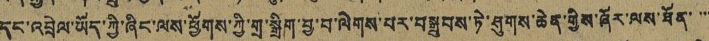དང་འབྲེལ་ཡོད་ཀྱི་ཞིང་ལས་ཕྱོགས་ཀྱི་གྲ་སྒྲིག་བྱ་བ་ལེགས་པར་བསྒྲུབས་ཏེ་ཤུགས་ཆེན་གྱིས་ཞོར་ལས་ཐོན་་་་
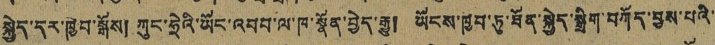སྐྱེད་དར་ཁྱེབ་སྒོས། ཀུང་ཧྲེའི་ཡོང་འབབ་ལ་ཁ་སྣོན་བྱེད་རྒྱུ། ཡོངས་ཁྱབ་ཏུ་ཐོན་སྐྱེད་སྒྲིག་བཀོད་བྱས་པའི་
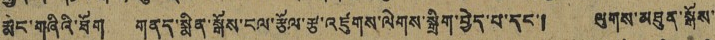རྨང་གཞིའ་ཐོག གནད་སྨིན་སྒོས་ངལ་རྩོལ་རྩ་འཛུགས་ལེགས་སྒྲིག་བྱེད་པ་དང་། ལུགས་མཐུན་སྒོས་
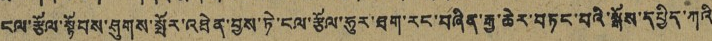ངལ་རྩོལ་སྟོབས་ཤུགས་སྤོར་འཐེན་བྱས་ཏེ་ངལ་རྩོལ་ཧུར་ཐག་རང་བཞིན་རྒྱ་ཆེར་བཏང་བའི་སྒོས་དཔྱིད་ཀའི
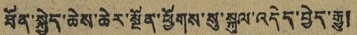ཐོན་སྐྱེད་ཆེས་ཆེར་སྔོན་ཕྱོགས་སུ་སྐུལ་འདེད་བྱེད་རྒྱུ།
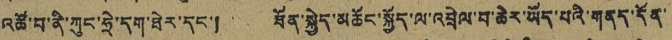འཚོ་བ་ནི་ཀུང་ཧྲེ་དག་ཐེར་དང་། ཐོན་སྐྱེད་མཆོང་སྐྱོད་ལ་འབྲེལ་བ་ཆེར་ཡོད་པའི་གནད་དོན་
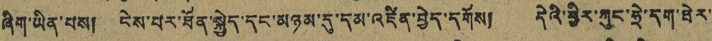ཞིག་ཡིན་པས། ངེས་པར་ཐོན་སྐྱེད་དང་མཉམ་དུ་དམ་འཛིན་བྱེད་དགོས། དེའི་ཕྱིར་ཀུང་ཧྲེ་དག་ཐེར་
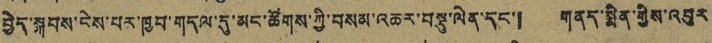བྱེད་སྐབས་ངེས་པར་ཁྱབ་གདལ་དུ་མང་ཚོགས་ཀྱི་བསམ་འཆར་བསྡུ་ལེན་དང་། གནད་སྨིན་གྱིས་འབུར
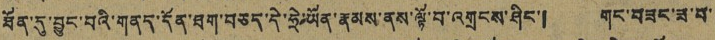ཐོན་དུ་བྱུང་བའི་གནད་དོན་ཐག་བཅད་དེ་ཧྲེ་ཡོན་རྣམས་ནས་ལྟོ་བ་འགྲངས་ཤིང་། གང་བཟང་ཟ་བ་
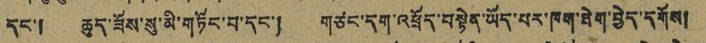དང་། ཆུད་ཟོས་སུ་མི་གཏོང་བ་དང་། གཙང་དག་འཕྲོད་བསྟེན་ཡོད་པར་ཁག་ཐེག་བྱེད་དགོས།
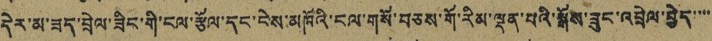དེར་མ་ཟད་བྲེལ་ཟིང་གི་ངལ་རྩོལ་དང་ངེས་མཁོའི་ངལ་གསོ་བཅས་གོ་རིམ་ལྡན་པའི་སྒོས་ཟུང་འབྲེལ་བྱེད་་་་
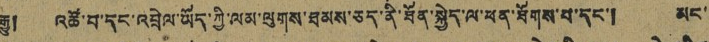རྒྱུ། འཚོ་བ་དང་འབྲེལ་ཡོད་ཀྱི་ལམ་ལུགས་ཐམས་ཅད་ནི་ཐོན་སྐྱེད་ལ་ཕན་ཐོགས་པ་དང་། མང་
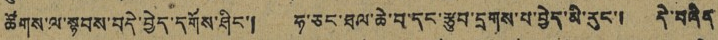ཚོགས་ལ་སྟབས་བདེ་བྱེད་དགོས་ཤིང་། ཧ་ཅང་ཐལ་ཆེ་བ་དང་རྩུབ་དྲགས་པ་བྱེད་མི་རུང་། དེ་བཞིན་
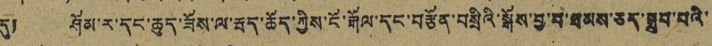དུ། ཤོམ་ར་དང་ཆུད་ཟོས་ལ་རྦད་ཆོད་ཀྱིས་ངོ་རྒོལ་དང་བརྩོན་བསྲིའི་སྒོས་བྱ་བ་ཐམས་ཅད་སྒྲུབ་པའི་
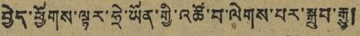བྱེད་ཕྱོགས་ལྟར་ཧྲེ་ཡོན་གྱི་འཚོ་བ་ལེགས་པར་སྒྲུབ་རྒྱུ།
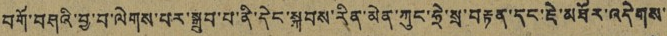བགོ་བཤའི་བྱ་བ་ལེགས་པར་སྒྲུབ་པ་ནི་དེང་སྐབས་རིན་མེན་ཀུང་ཧྲེ་སྲ་བརྟན་དང་ཇེ་མཐོར་འདེགས་
